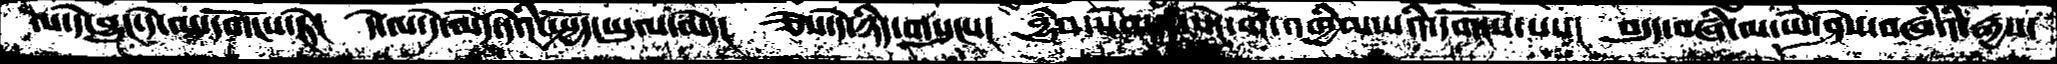ལ་དེ་བྱུང་དེ་ལ་དགོངས་ཏེ།  དེ་ལ་དེ་མེད་དེའི་སྤྱོད་ཡུལ་མེད་།  ཅེས་དེ་ཉིད་གསུངས།  བྱུཾབ་སེམས་སེང་གེ་འཁྱིལ་པའི་དགོངས་པས།  བདུད་བཞི་ལ་ཡེ་ཤེས་བཞིའི་རྒྱས་
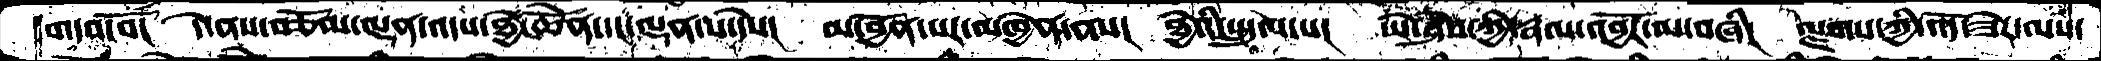གདབ་བོ།  དེ་ནས་བཅོམ་ལྡན་འདས་ཐྱེ་ཆེནོ་དང་ལྡན་པ་དེས།  མ་བྱོན་པར་མཁྱེན་ནས།  ཐྱེའི་སྤྲུལ་པ།  ཡེ་ཤེས་ཀྱི་རྣལ་འབྱོར་ལ་བཞི།  ལྗགས་ཀྱི་འོད་ཟེར་ལས་
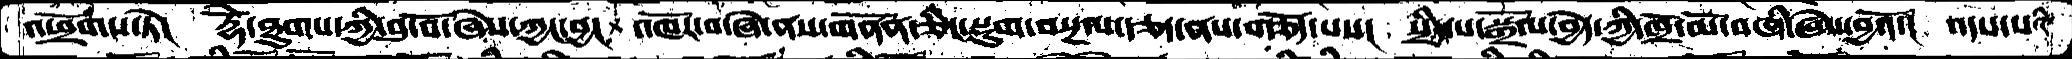འཕྲོགས་ཏེ།   རྡོེ་ཐུགས་ཀྱི་བུ་བོ་ཞེས་ཀྱང་བྱ།   འཁོར་བ་ཞེ་ནས་གནོན་ཅིང་སྡུག་བསྔལ་རྩད་ནས་གཅོད་པས།  སྲིད་པ་སྒྲོལ་བྱེད་ཀྱི་ཁྲོ་མོ་བཞི་ཞེས་བྱའོ་།  འདས་པའི་
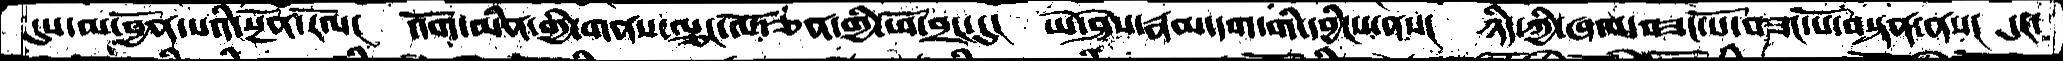དུས་མ་བྱོན་པའི་སྔོན་རོལ།   འོག་མིན་གྱི་གནས་ལྕང་ལོ་ཅན་གྱི་ཕོ་བྲང་དུ།   ཡེ་ཤེས་རྣམ་དག་གི་དབྱིངས་ནས།  ཉིད་ཀྱི་ཞལ་བཟང་པོ་བཟང་པོ་བསྟན་ནས།   དུང་
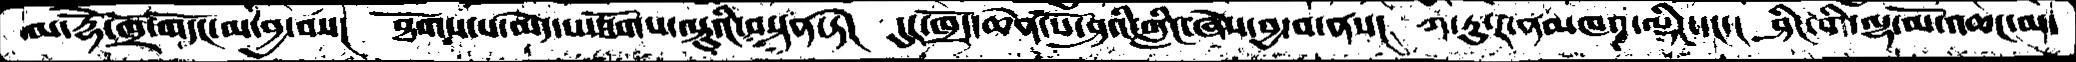མ་རྡོེ་ཁྲོ་གདོང་མ་བྱ་བས།   ཐོགས་པ་མེད་པ་ཐོགས་ལྟུའི་བསྟན་ཏེ།   དུར་ཁྲོད་ཆེན་པོ་ཤའི་གླིང་ཞེས་བྱ་བ་ནས།  ཀ་ཏུ་ར་ནམཁའ་ལྡིང་དང་།  ཤིང་གི་ལྷ་མོ་འཆང་མ
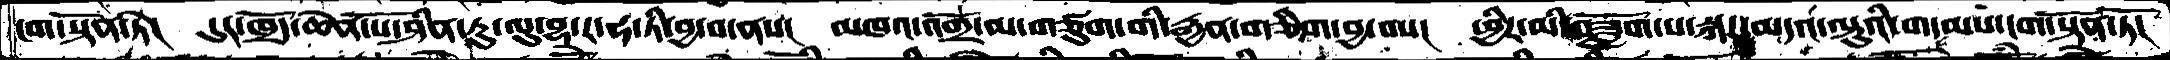ངག་སྟོན་ཏེ།     དུར་ཁྲོད་ཆེན་པོ་ཤིན་ཏུ་ལུ་བྷ་ར་ཧ་ཏི་བྱ་བ་ནས།    མཁའ་འགྲོ་མ་གཙུག་གི་རྒྱན་གཅིག་བྱ་བས།  ཕྱིར་མི་བཟློག་པ་སྐར་མདའ་ལྟུའི་གདམས་ངག་སྟོན་ཏོ།
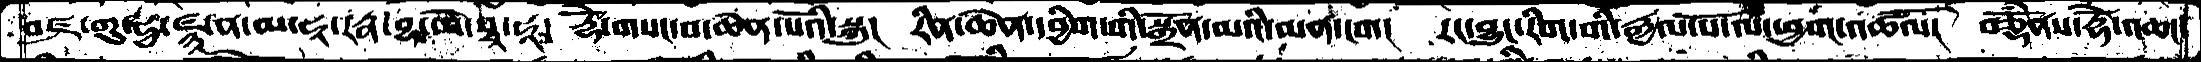བཛྲ་གུ་ཧྱ་ཛྙཱ་ན་མ་ཧཱ་རཏྣ་བྷ་ཡེ་སྭ་ཧཱ།  རྡོེཻ་གསང་བ་ཆེན་པོའི་སྐུ།  རིན་ཆེན་དབྱིག་གི་སྒྲོན་མའི་མན་ངག།  རང་བྱུང་རིག་གི་རྒྱལ་པོ་ལ་ཕྱག་འཚལོ།  བཅྡནོཾས་རྡོཻ་འཆང་
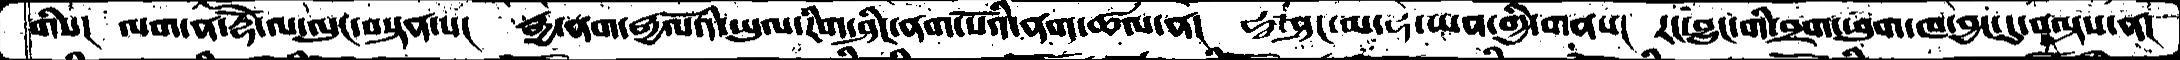གིས།   ལག་ན་རྡོེ་ལ་ལུང་བསྟན་པ།  རྒྱ་ནག་རྒྱལོའི་ཡུལ་རིག་ཤིང་ནག་པོའི་ནག་ཚལ་ན།  ཧྭ་ཤང་མ་ཧེ་ཡབ་གྱི་གནས།  རང་བྱུང་གི་བྲག་ཕུག་ཁ་བྱང་དུ་བལྟས་ན།
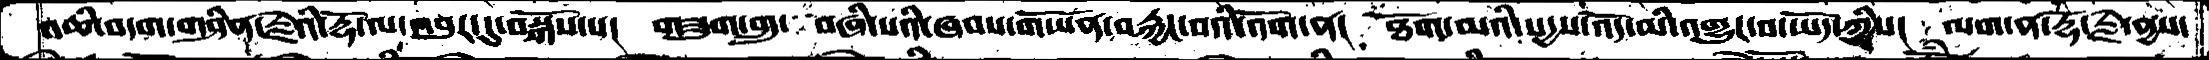འཆི་བདག་གཤིན་རྗེའི་རྡོ་ལ་འབུར་དུ་བསྒོས་པ།   གཟུག་གྲུ་ བཞི་པའི་ཞབས་གཡོན་བརྐྱང་བའི་འོག་ན།  ཐོག་མའི་སདྱས་འོད་མི་འགྱུར་བ་ཡོད་ཀྱིས།  ལག་ན་རྡོ་རྗེ་ནྱས་
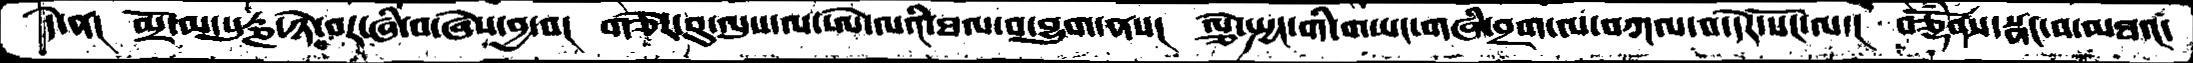དེ་ན།  མྲོ་མ་པུཏྞ་ཉེ་བར་ཞི་བ་ཞེས་བྱ་བ།  གཅེེར་བུ་ལུས་ལ་ཨེ་ལའི་ཐལ་བ་བྱུག་ནས།   ལྕེ་སྤྱང་གི་གཡང་གཞི་བྲག་ལ་བཀལ་བ་དེར་སོང་ལ་།  བཅྡོཾནས་སྣང་བ་མཐའ་
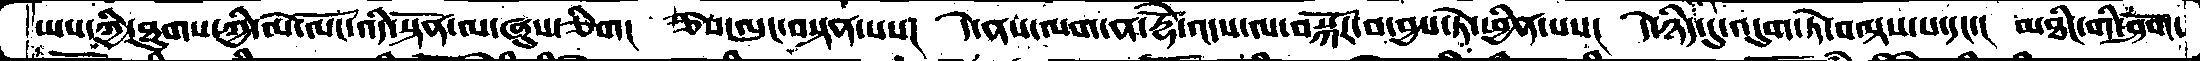ཡས་ཀྱི་ཐུགས་ཀྱི་མེ་ལོང་འདི་སྟོན་ལ་ཞུས་ཅིག།  ཅེས་ལུང་བསྟན་པས།  དེ་ནས་ལག་ན་རྡོེ་འདས་ལ་བསྐོར་བ་བྱས་ཏེ་ཕྱིན་པས།  དེ་ཉིད་དུ་འདུག་ཏེ་བལྟས་པ་དང་།  མཐིང་གི་ཤོག་
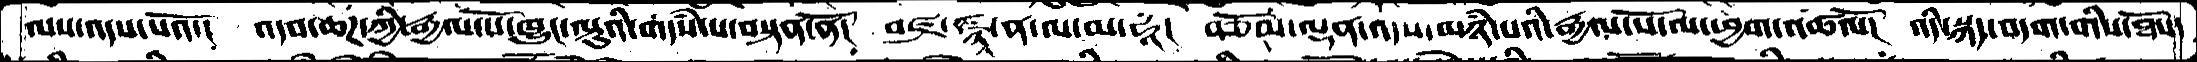ལས་འདས་པའོ་།  འདབ་ཆཌ་ཀྱི་རྒྱལ་པོ་ཁྱུང་ལྟའི་གདཾས་པ་བསྟན་ནོ།  བཛྲ་ཛྙཱ་ན་ལ་མ་ཧཱ།  བཅོམ་ལྡན་འདས་མཉཾ་པའི་རྒྱལ་པོ་ལ་ཕྱག་འཚལོ།  འདི་སྐད་བདག་གིས་ཐོས་
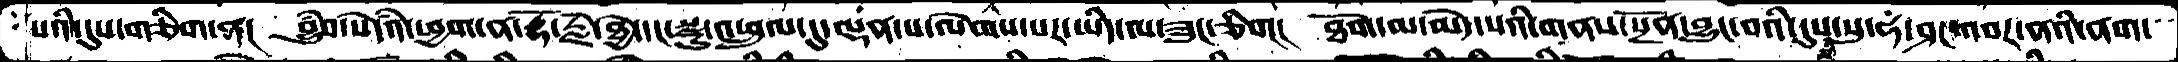པའི་དུས་གཅིག་ན།  བྱུཾབ་སེཾདའི་ཕྱག་ན་རྡོ་རྗེ་ཐྱེ་དང་སྫུ་འཕྲུལ་དུ་ལྡན་པ་ལེགས་པར་ཡིད་ལ་ཟུང་ཅིག།  ཐོག་མ་མེད་པའི་གནས་སྔོན་བྱུང་བའི་དུས་སུ་ཧ་ཤང་འབར་ནའི་ནག་
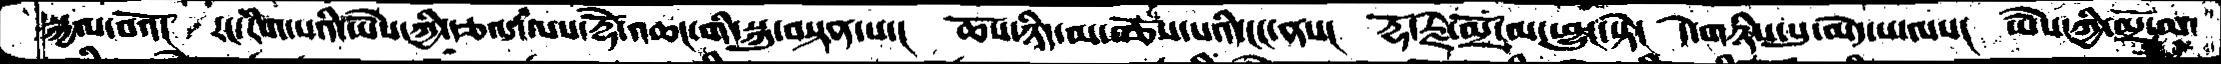སྐྱལ་བའོ།  རང་རིག་པའི་ཡཻས་ཀྱི་རྩལ་ལས་རྡོ་ེ་འཆང་གི་སྐུ་བསྟན་པ།  ཆོས་ཉིད་མ་བཅོས་པའི་ངང་ནས།  རྡོ་རྗེ་མྲོ་མ་ཕྱུང་སྟེ།  དེ་གཉིས་སུ་མེད་པ་ལས།  ཡཻས་ཀྱི་མྲོ་མ་
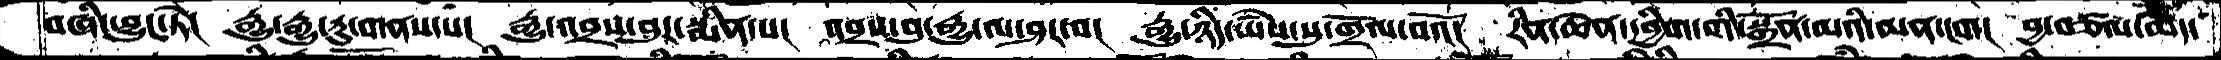བཞི་བྱུང་ཏེ།  རྒྱུ་རྒྱུ་རུ་གནས་པ།  རྒྱུ་འབྲས་བུར་སྨིན་པ།  འབྲས་བུ་རྒྱུ་ལ་ཤར་བ།  རྒྱུ་ཉིད་ཡཻས་སུ་གྲོལ་བའོ།  རིན་ཆེན་དབྱིག་གི་སྒྲོལ་མའི་མན་ངག།  བྱ་བཙལ་མེད་
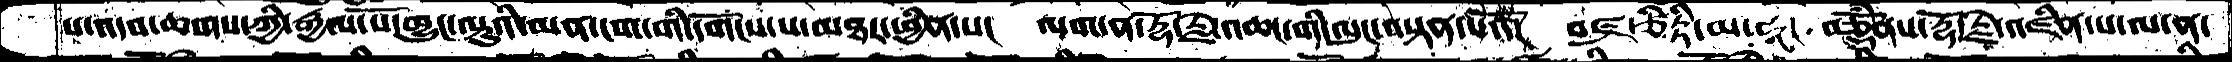པ་འདབ་ཆགས་ཀྱི་རྒྱལ་པོ་ཁྱུང་ལྟུའི་མན་ངག་གི་དགོངས་པ་མཐར་ཕྱིན་པ།   ལག་ན་རྡོ་རྗེ་འཆང་གི་ལུང་བསྟན་པའོ།  བཛྲ་ཙིཏྟི་མ་ཧཱ།  བཅྡོཾནས་རྡོ་རྗེ་འཛིན་པ་ལ་ན་
